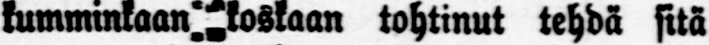kumminkaan koskaan tohtinut tehdä sitä
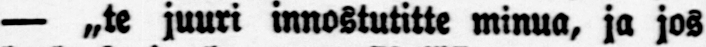— „te juuri innostutitte minua, ja jos
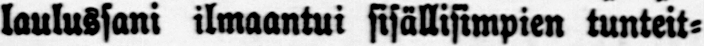laulussani ilmaantui sisällisimpien tunteit-
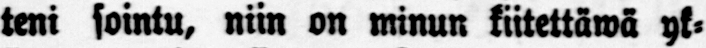teni sointu, niin on minun kiitettäwä yk-
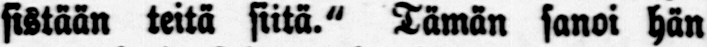sistään teitä siitä." Tämän sanoi hän
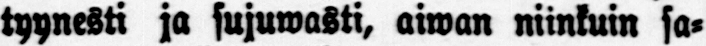tyynesti ja sujuwasti, aiwan niinkuin sa-
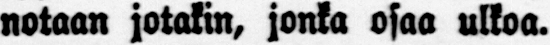notaan jotakin, jonka osaa ulkoa.
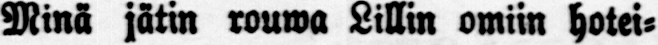Minä jätin rouwa Lillin omiin hotei-
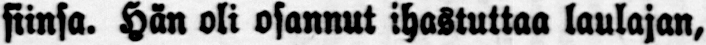siinsa. Hän oli osannut ihastuttaa laulajan,
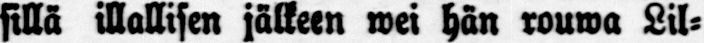sillä illallisen jälkeen wei hän rouwa Lil-
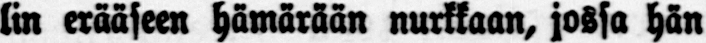lin erääseen hämärään nurkkaan, jossa hän
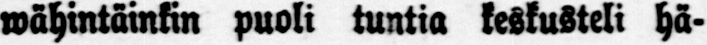wähintäinkin puoli tuntia keskusteli hä-
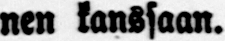nen kanssaan.
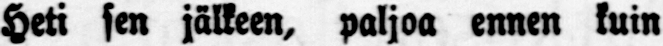Heti sen jälkeen, paljoa ennen kuin
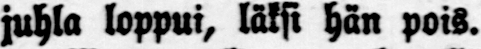juhla loppui, läksi hän pois.
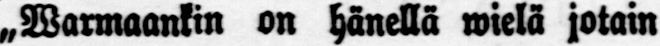„Warmaankin on hänellä wielä jotain
